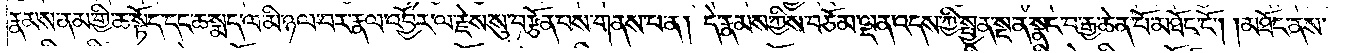རྣམས་ནམ་གྱི་ཆ་སྟོད་དང་ཆ་སྨད་ལ་མི་ཉལ་བར་རྣལ་འབྱོར་ལ་རྗེས་སུ་བརྩོན་པས་གནས་པ་ན། དེ་རྣམས་ཀྱིས་བཅོམ་ལྡན་འདས་ཀྱི་སྤྱན་སྔ་ན་སྣང་བ་རྒྱ་ཆེན་པོ་མཐོང་ངོ༌། །མཐོང་ནས་
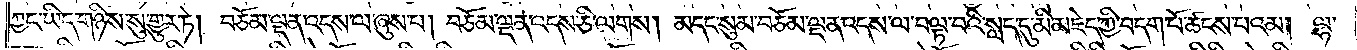ཀྱང་ཡིད་གཉིས་སུ་གྱུར་ཏེ། བཅོམ་ལྡན་འདས་ལ་ཞུས་པ། བཅོམ་ལྡན་འདས་ཅི་ལགས། མདང་སུམ་བཅོམ་ལྡན་འདས་ལ་བལྟ་བའི་སླད་དུ་མི་མཇེད་ཀྱི་བདག་པོ་ཚངས་པའམ། ལྷ་
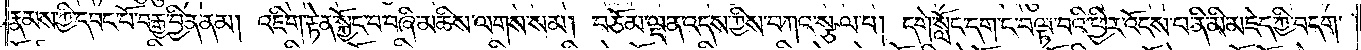རྣམས་ཀྱི་དབང་པོ་བརྒྱ་བྱིན་ནམ། འཇིག་རྟེན་སྐྱོང་བ་བཞི་མཆིས་ལགས་སམ། བཅོམ་ལྡན་འདས་ཀྱིས་བཀའ་སྩལ་པ། དགེ་སློང་དག་ང་བལྟ་བའི་ཕྱིར་འོངས་པ་ནི་མི་མཇེད་ཀྱི་བདག་
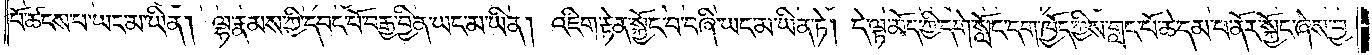པོ་ཚངས་པ་ཡང་མ་ཡིན། ལྷ་རྣམས་ཀྱི་དབང་པོ་བརྒྱ་བྱིན་ཡང་མ་ཡིན། འཇིག་རྟེན་སྐྱོང་བ་བཞི་ཡང་མ་ཡིན་ཏེ། དེ་ལྟ་མོད་ཀྱི་དགེ་སློང་དག་ཁྱོད་ཀྱིས་གླང་པོ་ཆེ་དམ་པ་ནོར་སྐྱོང་ཞེས་བྱ་
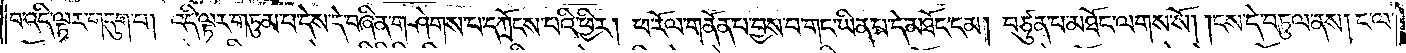པ་འདི་ལྟར་གདུག་པ། འདི་ལྟར་གཏུམ་པ་དེས་དེ་བཞིན་གཤེགས་པ་དཀྲོངས་པའི་ཕྱིར། ཕ་རོལ་གནོན་པ་བྱས་པ་གང་ཡིན་པ་དེ་མཐོང་ངམ། བཙུན་པ་མཐོང་ལགས་སོ། །ངས་དེ་བཏུལ་ནས། ང་ལ་
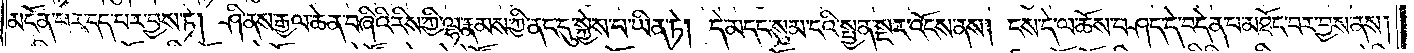མངོན་པར་དད་པར་བྱས་ཏེ། ཤི་ནས་རྒྱལ་ཆེན་བཞིའི་རིས་ཀྱི་ལྷ་རྣམས་ཀྱི་ནང་དུ་སྐྱེས་པ་ཡིན་ཏེ། དེ་མདང་སུམ་ངའི་སྤྱན་སྔར་འོངས་ནས། ངས་དེ་ལ་ཆོས་བཤད་དེ་བདེན་པ་མཐོང་བར་བྱས་ནས།
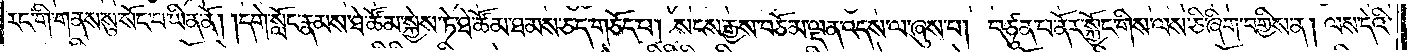རང་གི་གནས་སུ་སོང་བ་ཡིན་ནོ། །དགེ་སློང་རྣམས་ཐེ་ཚོམ་སྐྱེས་ཏེ་ཐེ་ཚོམ་ཐམས་ཅད་གཅོད་པ། སངས་རྒྱས་བཅོམ་ལྡན་འདས་ལ་ཞུས་པ། བཙུན་པ་ནོར་སྐྱོང་གིས་ལས་ཅི་ཞིག་བགྱིས་ན། ལས་དེའི་
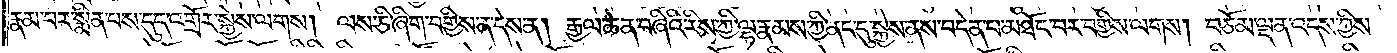རྣམ་པར་སྨིན་པས་དུད་འགྲོར་སྐྱེས་ལགས། ལས་ཅི་ཞིག་བགྱིས་ན་དེས་ན། རྒྱལ་ཆེན་བཞིའི་རིས་ཀྱི་ལྷ་རྣམས་ཀྱི་ནང་དུ་སྐྱེས་ནས་བདེན་པ་མཐོང་བར་བགྱིས་ལགས། བཅོམ་ལྡན་འདས་ཀྱིས་
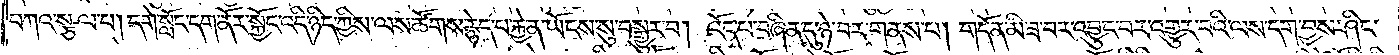བཀའ་སྩལ་པ། དགེ་སློང་དག་ནོར་སྐྱོང་འདི་ཉིད་ཀྱིས་ལས་ཚོགས་རྙེད་པ་རྐྱེན་ཡོངས་སུ་བསྒྱུར་བ། འོད་པ་བཞིན་དུ་ཉེ་བར་གནས་པ། གདོན་མི་ཟ་བར་འབྱུང་བར་འགྱུར་བའི་ལས་དག་བྱས་ཤིང་
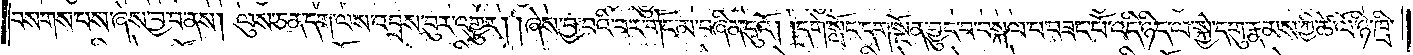བསགས་པས་ཞེས་བྱ་བ་ནས། ལུས་ཅན་དག་ལས་འབྲས་བུར་འགྱུར། །ཞེས་བྱ་བའི་བར་གོང་མ་བཞིན་དུའོ། །དགེ་སློང་དག་སྔོན་བྱུང་བ་བསྐལ་པ་བཟང་པོ་འདི་ཉིད་ལ་སྐྱེ་དགུ་རྣམས་ཀྱི་ཚེ་ལོ་ཉི་ཁྲི་
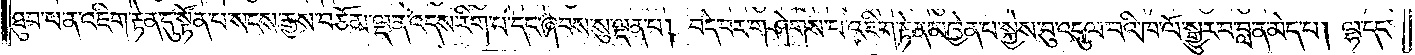ཐུབ་པ་ན་འཇིག་རྟེན་དུ་སྟོན་པ་སངས་རྒྱས་བཅོམ་ལྡན་འདས་རིག་པ་དང་ཞབས་སུ་ལྡན་པ། བདེ་བར་གཤེགས་པ་འཇིག་རྟེན་མཁྱེན་པ་སྐྱེས་བུ་འདུལ་བའི་ཁ་ལོ་སྒྱུར་བ་བླ་ན་མེད་པ། ལྷ་དང་
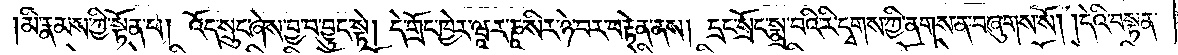མི་རྣམས་ཀྱི་སྟོན་པ། འོད་སྲུང་ཞེས་བྱ་བ་བྱུང་སྟེ། དེ་གྲོང་ཁྱེར་ཝཱ་ར་ཎཱ་སིར་ཉེ་བར་བརྟེན་ནས། དྲང་སྲོང་སྨྲ་བའི་རི་དྭགས་ཀྱི་ནགས་ན་བཞུགས་སོ། །དེའི་བསྟན་
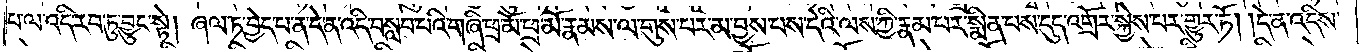པ་ལ་འདི་རབ་ཏུ་བྱུང་སྟེ། ཞལ་ཏ་བྱེད་པ་ན་དེ་ན་འདི་བསླབ་པའི་གཞི་ཕྲ་མོ་ཕྲ་མོ་རྣམས་ལ་གུས་པར་མ་བྱས་པས་དེའི་ལས་ཀྱི་རྣམ་པར་སྨིན་པས་དུད་འགྲོར་སྐྱེས་པར་གྱུར་ཏོ། །དེ་ན་འདིས་
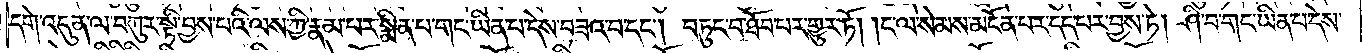དགེ་འདུན་ལ་བཀུར་སྟི་བྱས་པའི་ལས་ཀྱི་རྣམ་པར་སྨིན་པ་གང་ཡིན་པ་དེས་བཟའ་བ་དང༌། བཏུང་བ་ཐོབ་པར་གྱུར་ཏོ། །ང་ལ་སེམས་མངོན་པར་དད་པར་བྱས་ཏེ། ཤི་བ་གང་ཡིན་པ་དེས་
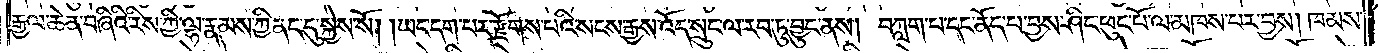རྒྱལ་ཆེན་བཞིའི་རིས་ཀྱི་ལྷ་རྣམས་ཀྱི་ནང་དུ་སྐྱེས་སོ། །ཡང་དག་པར་རྫོགས་པའི་སངས་རྒྱས་འོད་སྲུང་ལ་རབ་ཏུ་བྱུང་ནས། བཀླག་པ་དང་ནོད་པ་བྱས་ཤིང་ཕུང་པོ་ལ་མཁས་པར་བྱས། ཁམས་
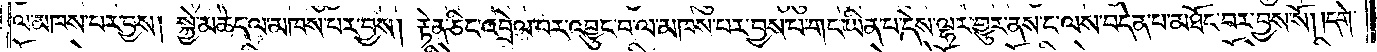ལ་མཁས་པར་བྱས། སྐྱེ་མཆེད་ལ་མཁས་པར་བྱས། རྟེན་ཅིང་འབྲེལ་པར་འབྱུང་བ་ལ་མཁས་པར་བྱས་པ་གང་ཡིན་པ་དེས་ལྷར་གྱུར་ནས་ང་ལས་བདེན་པ་མཐོང་བར་བྱས་སོ། །དགེ་
